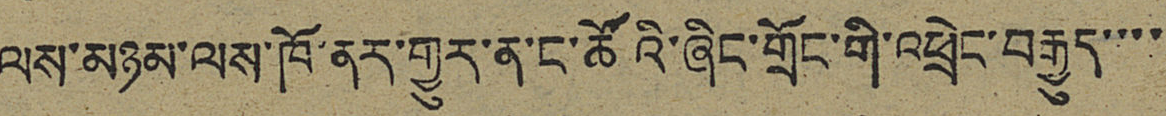ལས་མཉམ་ལས་ཁོ་ནར་གྱུར་ན་ང་ཚོའི་ཞིང་གྲོང་གི་འཕྲེང་བརྒྱུད་་་་
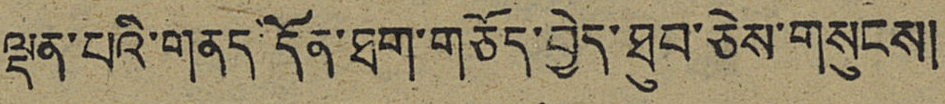ལྡན་པའི་གནད་དོན་ཐག་གཅོད་བྱེད་ཐུབ་ཅེས་གསུངས།
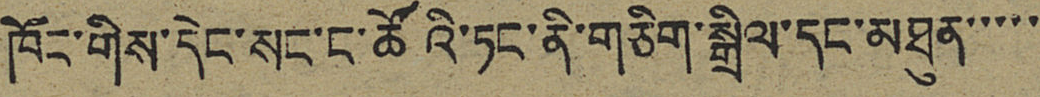ཁོང་གིས་དེང་སང་ང་ཚོའི་ཏང་ནི་གཅིག་སྒྲིལ་དང་མཐུན་་་་་
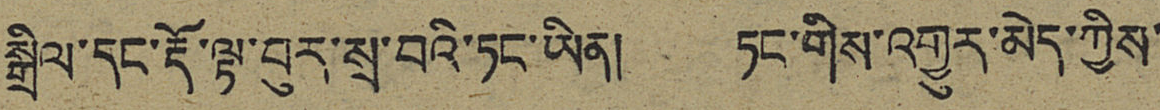སྒྲིལ་དང་རྡོ་ལྟ་བུར་སྲ་བའི་ཏང་ཡིན། ཏང་གིས་འགྱུར་མེད་ཀྱིས་
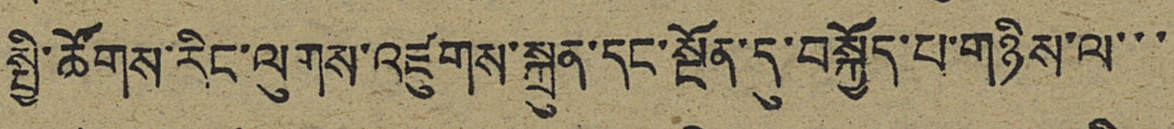སྤྱི་ཚོགས་རིང་ལུགས་འཛུགས་སྐྲུན་དང་སྔོན་དུ་བསྐྱོད་པ་གཉིས་ལ་་་
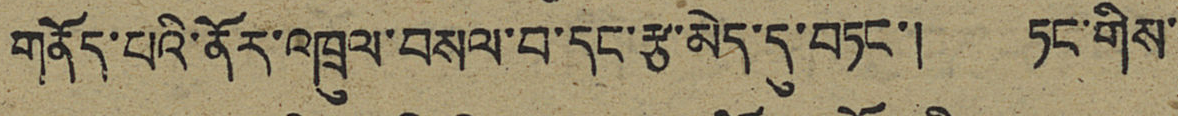གནོད་པའི་ནོར་འཁྲུལ་བསལ་བ་དང་རྩ་མེད་དུ་བཏང་། ཏང་གིས་
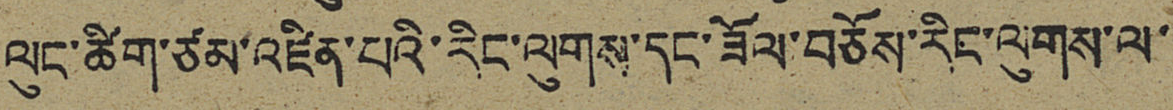ལུང་ཚིག་ཙམ་འཛིན་པའི་རིང་ལུགས་དང་ཟོལ་བཅོས་རིང་ལུགས་ལ་
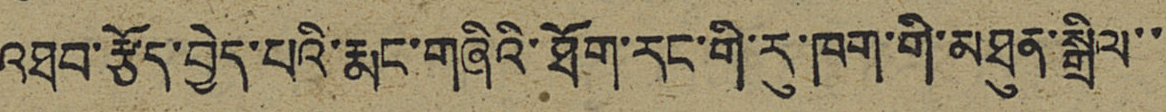འཐབ་རྩོད་བྱེད་པའི་རྨང་གཞིའི་ཐོག་རང་གི་རུ་ཁག་གི་མཐུན་སྒྲིལ་་
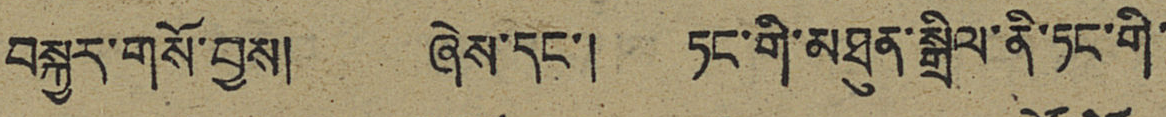བསྐྱར་གསོ་བྱས། ཞེས་དང་། ཏང་གི་མཐུན་སྒྲིལ་ནི་ཏང་གི་
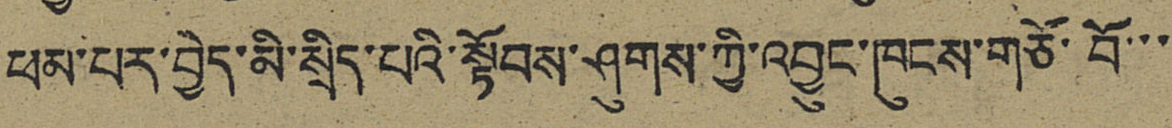ཕམ་པར་བྱེད་མི་སྲིད་པའི་སྟོབས་ཤུགས་ཀྱི་འབྱུང་ཁུངས་གཙོ་བོ་་་
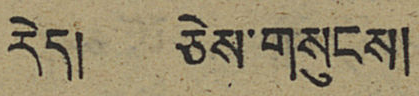རེད། ཅེས་གསུངས།
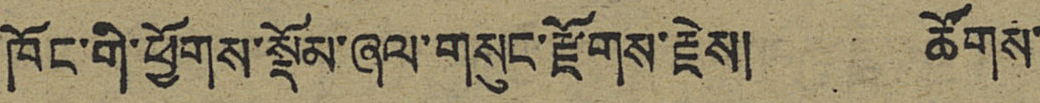ཁོང་གི་ཕྱོགས་སྡོམ་ཞལ་གསུང་རྫོགས་རྗེས། ཚོགས་
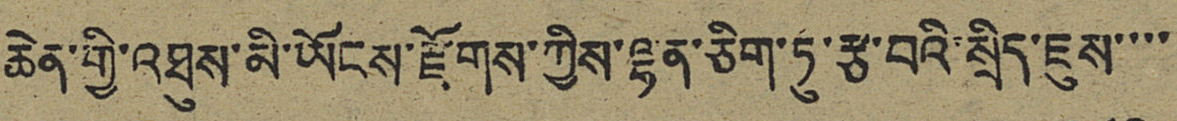ཆེན་གྱི་འཐུས་མི་ཡོངས་རྫོགས་ཀྱིས་ལྷན་ཅིག་ཏུ་རྩ་བའི་སྲིད་ཇུས་་་་
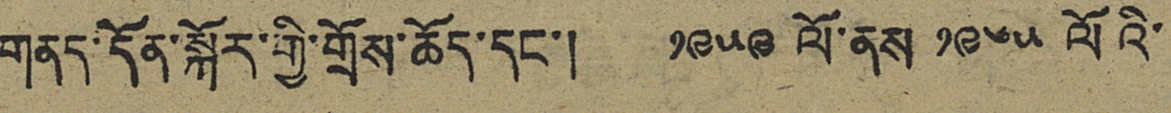གནད་དོན་སྐོར་གྱི་གྲོས་ཆོད་དང་། ༡༩༥༩ ལོ་ནས ༡༩༦༥ ལོའི་
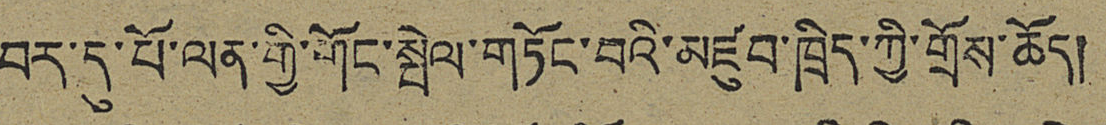བར་དུ་པོ་ལན་གྱི་གོང་སྤེལ་གཏོང་བའི་མཛུབ་ཁྲིད་ཀྱི་གྲོས་ཆོད།
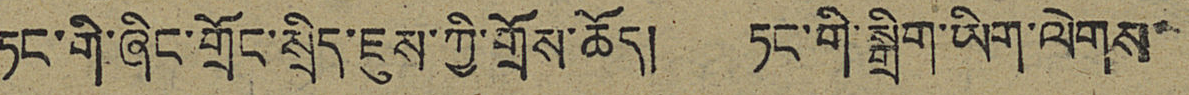ཏང་གི་ཞིང་གྲོང་སྲིད་ཇུས་ཀྱི་གྲོས་ཆོད། ཏང་གི་སྒྲིག་ཡིག་ལེགས་
